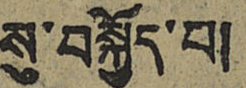སུ་བསྐྱོད་པ།
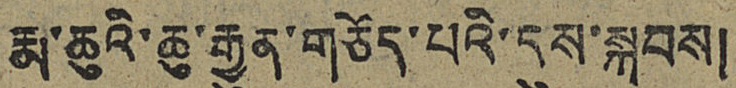རྨ་ཆུའི་ཆུ་རྒྱུན་གཅོད་པའི་དུས་སྐབས།
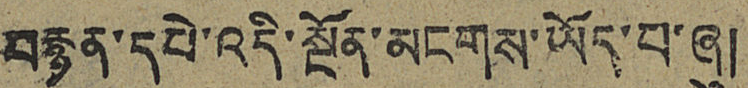བརྙན་དཔེ་འདི་སྔོན་མངགས་ཡོད་པ་ཞུ།
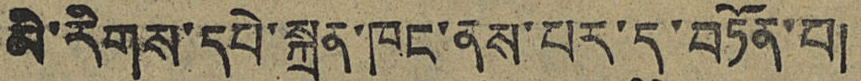མི་རིགས་དཔེ་སྐྲུན་ཁང་ནས་པར་དུ་བཏོན་པ།
